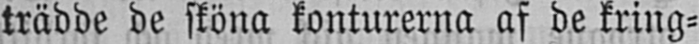trädde de sköna konturerna af de kring-
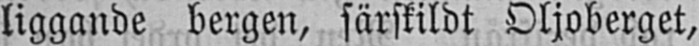liggande bergen, särskildt Oljoberget,
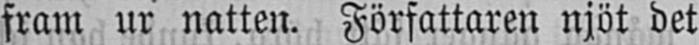fram ur natten. Författaren njöt det
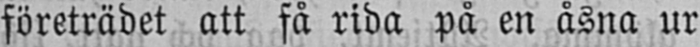företrädet att få rida på en åsna ur
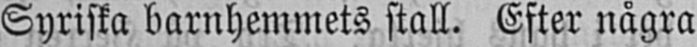Syriska barnhemmets stall. Efter några
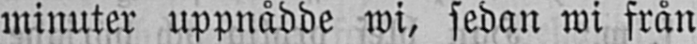minuter uppnådde wi, sedan wi från
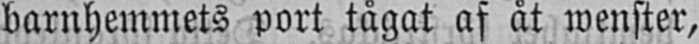barnhemmets port tågat af åt wenster,
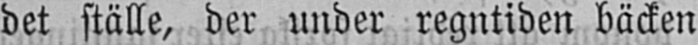det ställe, der under regntiden bäcken
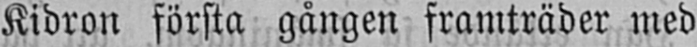Kidron första gången framträder med
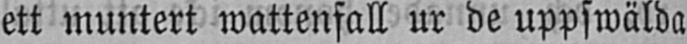ett muntert wattenfall ur de uppswälda
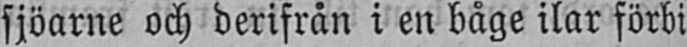sjöarne och derifrån i en båge ilar förbi
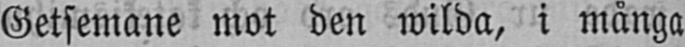Getsemane mot den wilda, i många
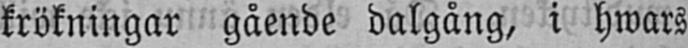krökningar gående dalgång, i hwars
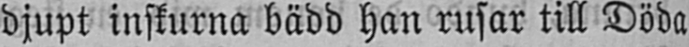djupt inskurna bädd han rusar till Döda
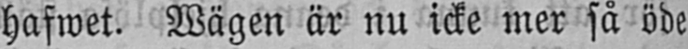hafwet. Wägen är nu icke mer så öde
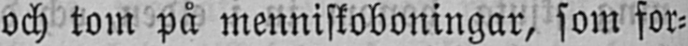och tom på menniskoboningar, som for-
